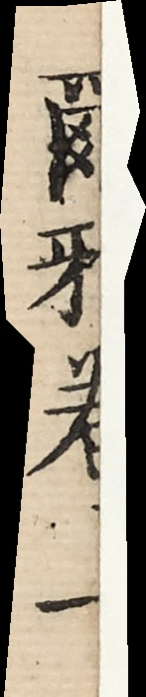爾雅卷上
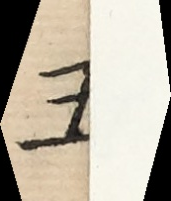五
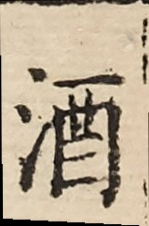酒
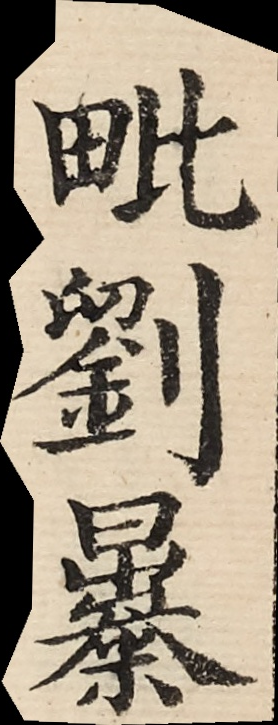毗劉暴
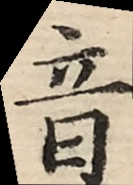音
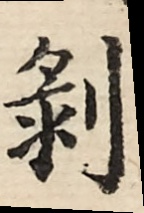剝
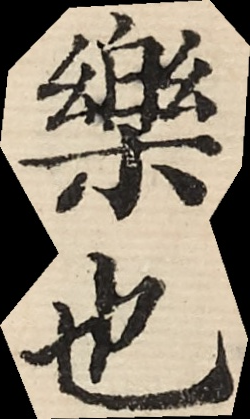樂也
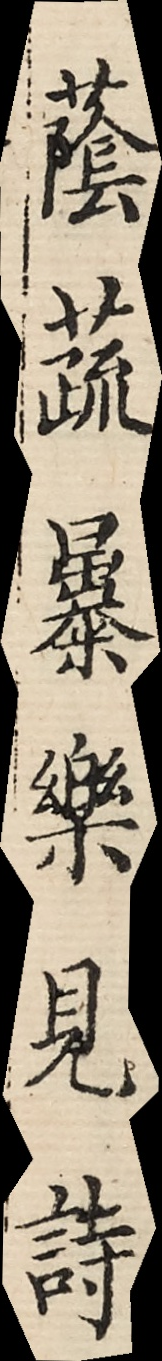蔭蔬暴樂見詩
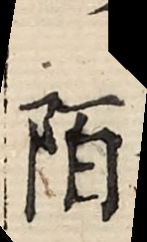陌
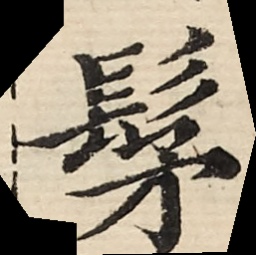髳
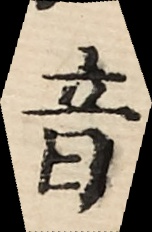音
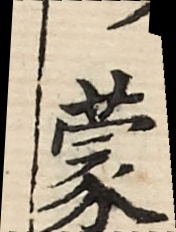蒙
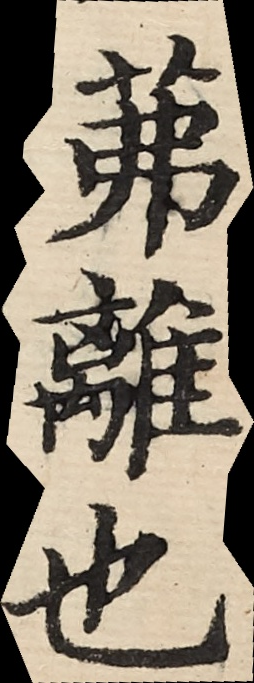茀離也
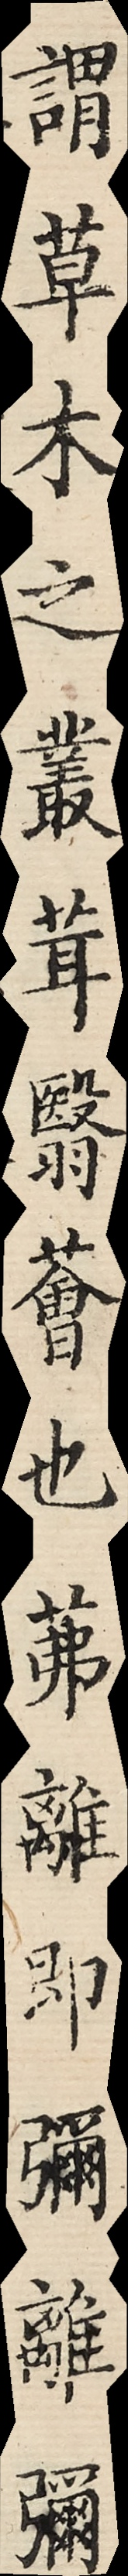謂草木之叢茸翳薈也茀離即彌離彌
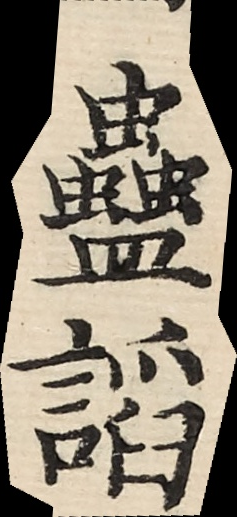蟲謟
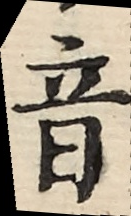音
